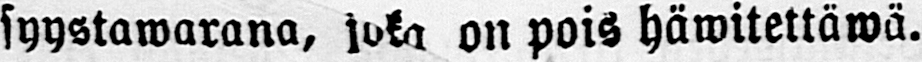syystawarana, loka on pois häwitettäwä.
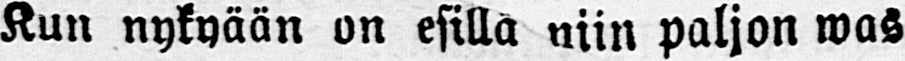Kun nykyään on esillä niin paljon was-
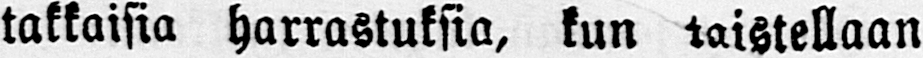takkaisia harrastuksia, kun taistellaan
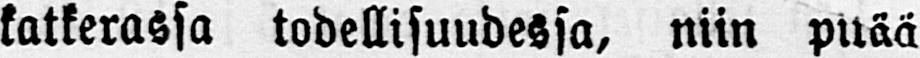katkerassa todellisuudessa, niin pitää
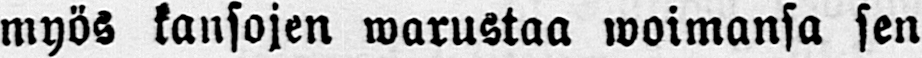myös kansojen warustaa woimansa sen
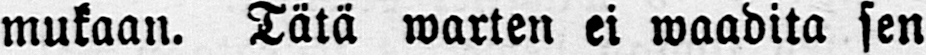mukaan. Tätä warten ei waadita sen
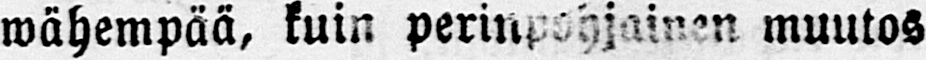wähempää, kuin perinpohjainen muutos
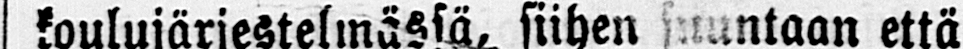koulujärjestelmssä, siihen suuntaan että
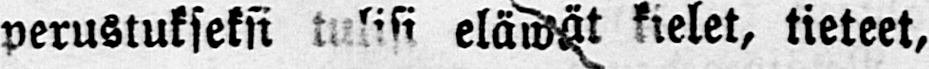perustukseksi tulisi eläwät kielet, tieteet,
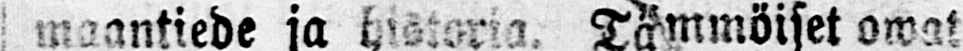maantiede ja historia. Tämmoiset owat
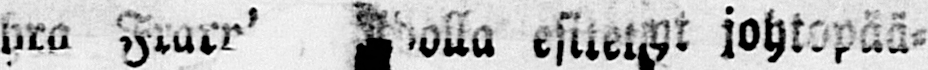hra Frarr' olla esitetyt johtopä ä-
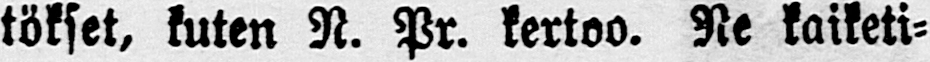tökset, kuten N. Pr. kertoo. Ne kaiketi-
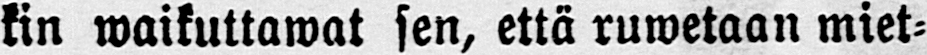kin waikuttawat sen, että ruwetaan miet-
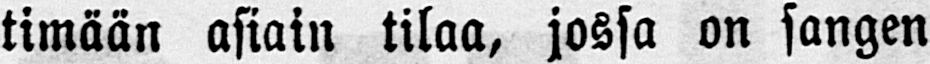timään asiain tilaa, jossa on sangen
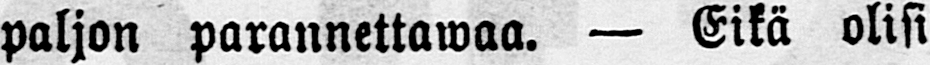paljon parannettawaa. — Eikä olisi
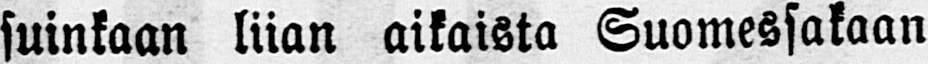suinkaan liian aikaista Suomessakaan
